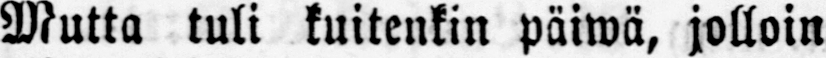Mutta tuli kuitenkin päiwä, jolloin
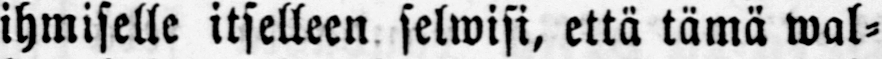ihmiselle itselleen selwisi, että tämä wal-
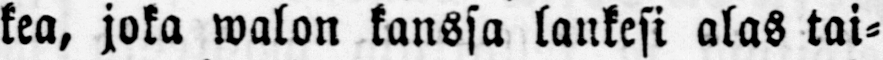kea, joka walon kanssa laukesi alas tai-
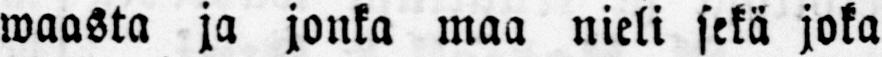waasta ja jonka maa nieli sekä joka
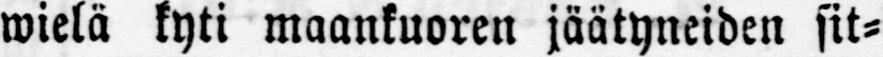wielä kyti maankuoren jäätyneiden sit-
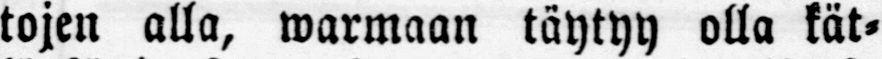tojen alla, warmaan täytyy olla kät-
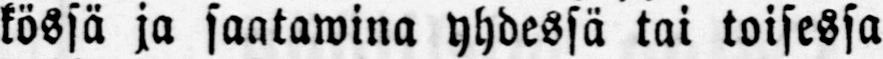kössä ja saatawina yhdessä tai toisessa
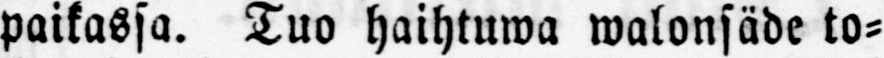paikassa. Tuo haihtuma malonsäde to-
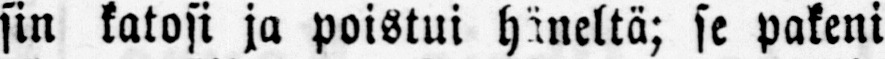sin katosi ja poistui häneltä; se pakeni
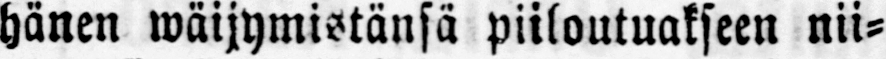hänen wäijymistänsä piiloutuakseen nii-
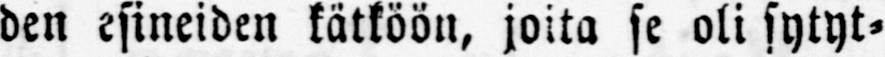den esineiden kätköön, joita se oli sytyt-
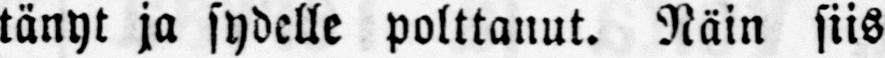tänyt ja sydelle polttanut. Näin siis
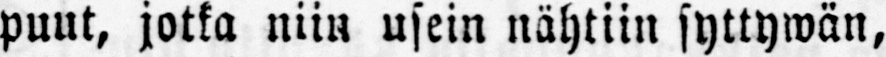puut, jotka niin usein nähtiin syttywän,
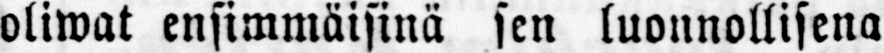oliwat ensimmäisinä sen luonnollisena
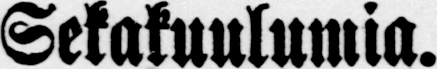Sekakuulumia.
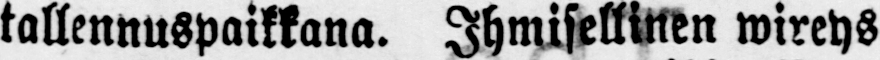tallennuspaikkana. Ihmisellinen wireys
